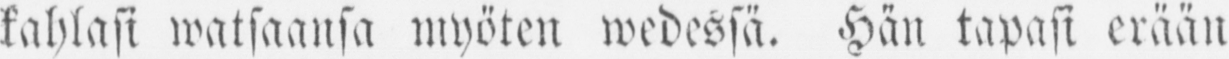kahlasi maksaansa myöten wedessä. Hän tapasi erään
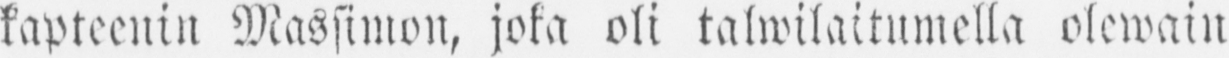kapteenin Massimon, joka oli talwilaitumella olewain
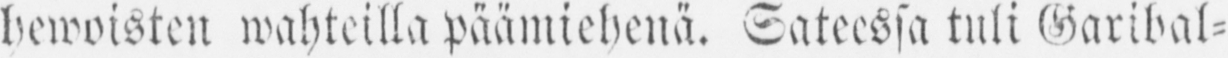hewoisten wahteilla päämiehenä. Sateessa tuli Garibal-
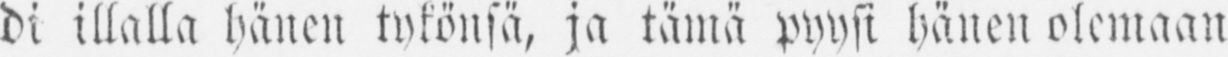di illalla hänen tukönsä, ja tämä pyysi hänen olemaan
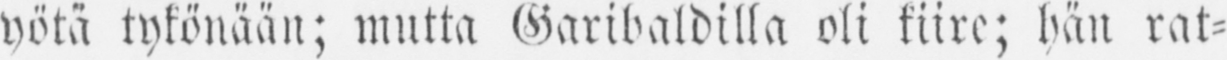yötä tykönään; mutta Garibaldilla oli kiire; hän rat-
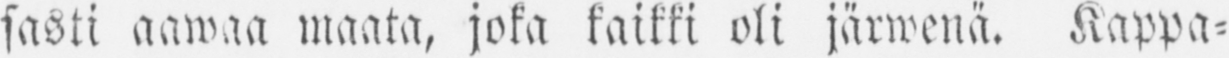sasti aawaa maata, joka kaikki oli järwenä. Kappa-
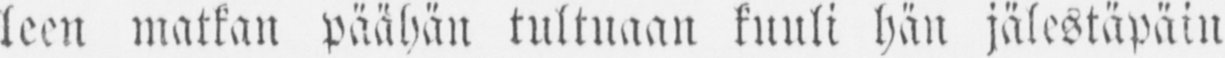leen matkan päähän tultuaan kuuli hän jälestäpäin
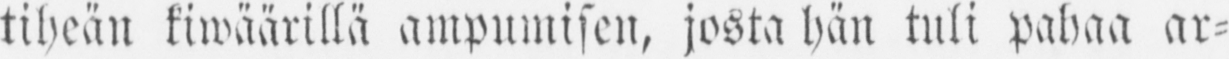tiheän kiwäärillä ampumisen, josta hän tuli pahaa ar-
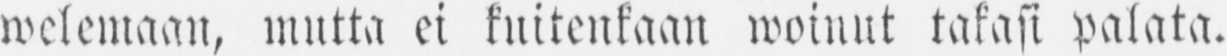welemaan, mutta ei kuitenkaan woinnt takasi palata.
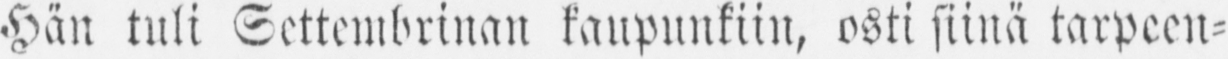Hän tuli Settembrinan kaupunkiin, osti siinä tarpeen-
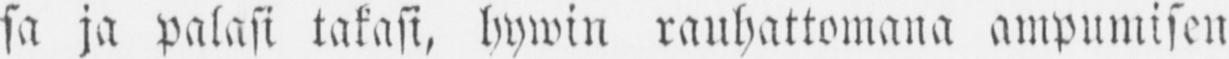sa ja palasi takasi, hywin rauhattomana ampumisen
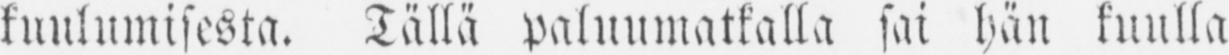kuulumisesta. Tällä paluumatkalla sai hän kuulla
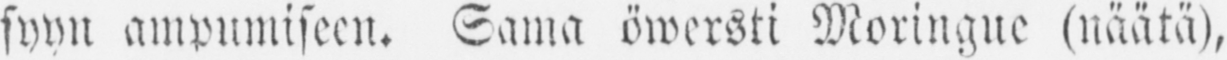syyn ampumiseen. Sama öwersti Moringue (näätä),
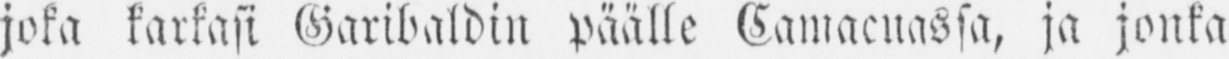joka karkasi Garibaldin päälle Camacuassa, ja jonka
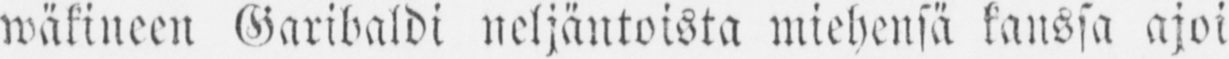wäkineen Garibaldi neljäntoista miehensä kanssa ajoi
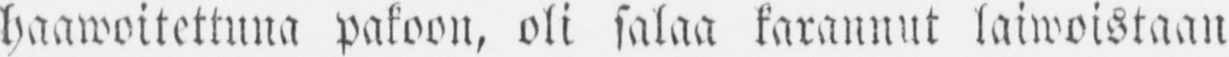haawoitettuna pakoon, oli salaa karannut laiwoistaan
